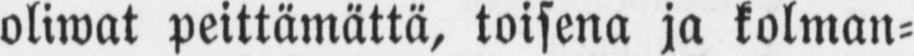oliwat peittämättä, toisena ja kolman-
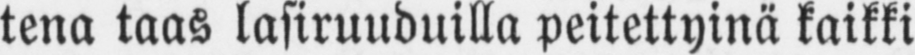tena taas lasiruuduilla peitettyinä kaikki
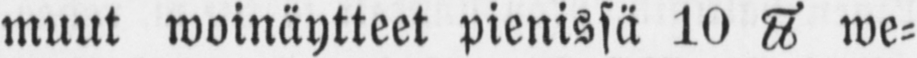muut woinäytteet pienissä 10 ? we-
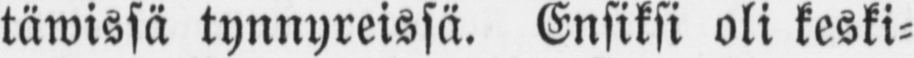täwissä tynnyreissä. Ensiksi oli keski-
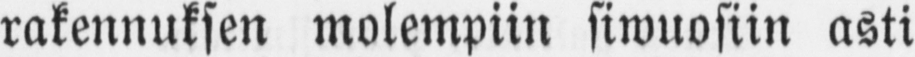rakennuksen molempiin siwuosiin asti
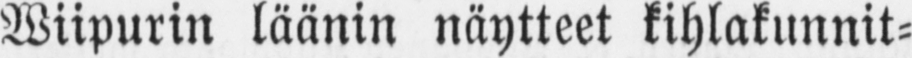Wiipurin läänin näytteet kihlakunnit-
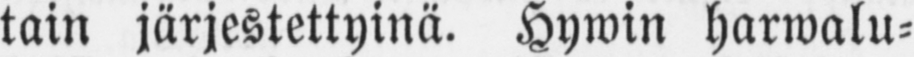tain järjestettyinä. Hywin harwalu-
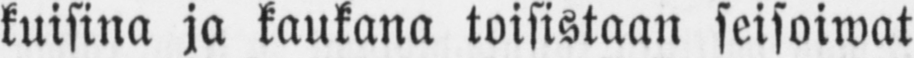kuisina ja kaukana toisistaan seisoiwat
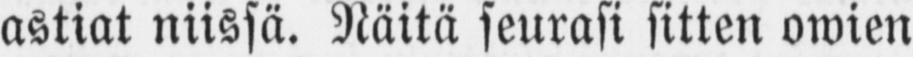astiat niissä. Näitä seurasi sitten owien
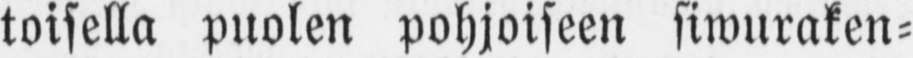toisella puolen pohjoiseen siwuraken-
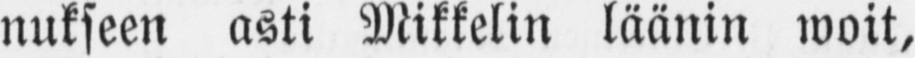nukseen asti Mikkelin läänin woit,
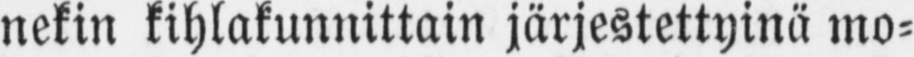nekin kihlakunnittain järjestettyinä mo-
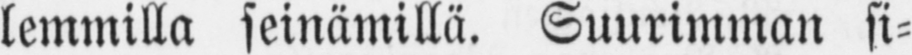lemmilla seinämillä. Suurimman si-
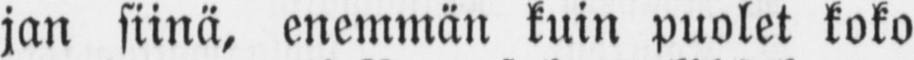jan siinä, enemmän kuin puolet koko
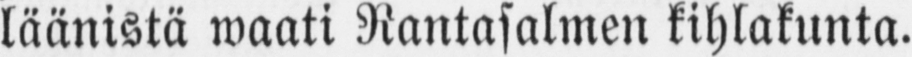läänistä waati Rantasalmen kihlakunta.
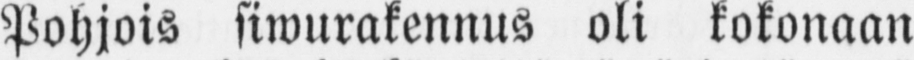Pohjois siwurakennus oli kokonaan
